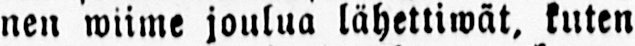nen wiime joulua lähettiwät, kuten
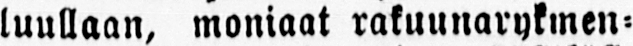luullaan, moniaat rakuunarykmen-
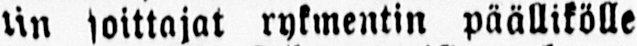tin soittajat rykmentin päällikölle
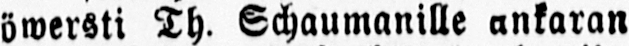öwersti Th. Schaumanille ankaran
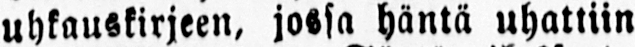uhkauskirjeen, jossa häntä uhattiin
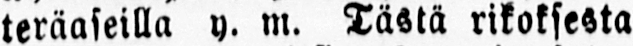teräaseilla y. m. Tästä rikoksesta
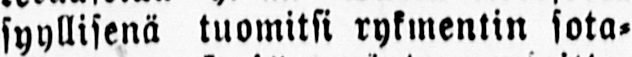syyllisenä tuomitsi rykmentin sota-
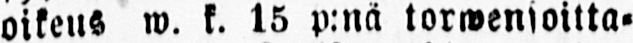oikeus w. k. 15 p.nä torwensoitta-
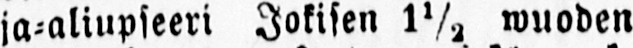ja-aliupseeri Jokisen 1½ wuoden
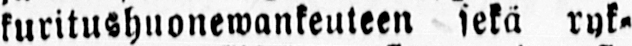kuritushuonewankeuteen sekä ryk-
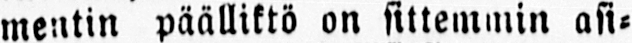mentin päälliktö on sittemmin asi-
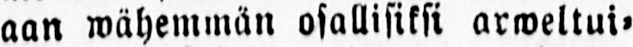aan wähemmän osallisiksi arweltui-
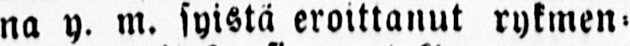na y. m. syistä eroittanut rykmen-
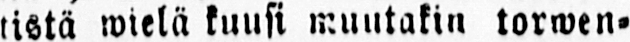tistä wielä kuusi muutakin torwen-
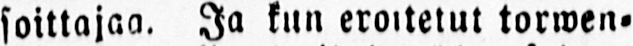soittajaa. Ja kun eroitetut torwen-
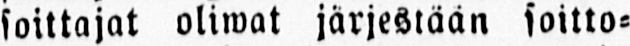soittajat oliwat järjestään soitto-
